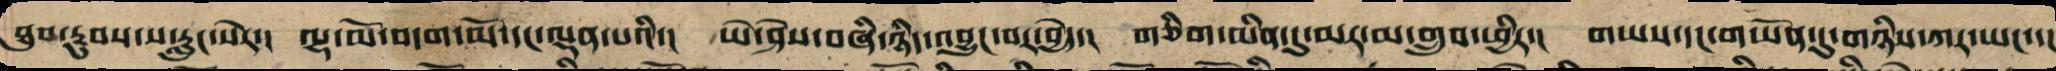ཐུབ་རུབས་ས་རླུང་སེར་། ལྷ་མོ་བདག་མོ་དང་ལྡན་པའི་། ཡེ་ཤེས་བཞི་ཉིད་འབྱུང་བར་བྱེད་། གཅིག་མིན་དུ་མར་མ་གྲུབ་ཕྱིར་། གཡས་དང་གཡོན་དུ་གཉིས་ཀར་ཡང་་།
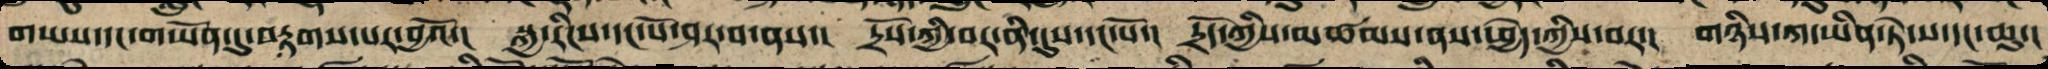གཡས་དང་གཡོན་དུ་བརྟག་པར་བྱའོ་། སྐྱ་རིངས་དང་པོ་ཤར་བ་ནས་། དྲོས་ཀྱི་བར་ནི་དུས་དང་པོ་། དྲོད་ཀྱི་མཚམས་ནས་ཕྱེད་ཀྱི་བར་། གཉིས་ཀ་ཡིན་ཏེ་ས་དང་ཆུ་།
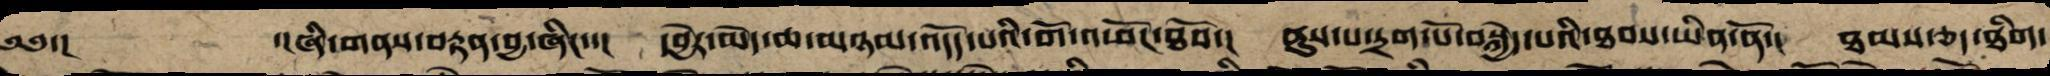༄༅་།      ་།ཞི་གནས་བརྟན་བྱ་ཞིང་་། དབྱེར་མེད་ཆ་མཉམ་འདོད་པའི་གོ་འཕང་ཐོབ་། ནུས་པ་དྲག་པོ་བསྐྱེད་པའི་ཐབས་ཡིན་ནོ་། ཐམས་ཅད་ཐིག་
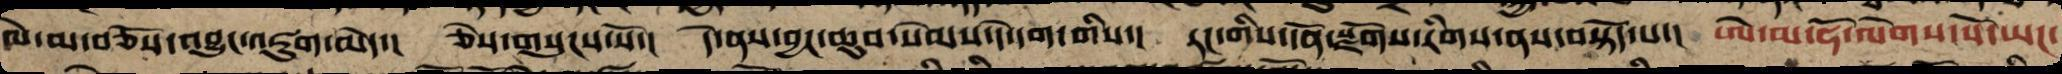ལེ་མ་བཅོས་འབྱུང་འཇུག་མེད་། ཅེས་གསུངས་སོ་། དེ་ནས་བྱང་ཆུབ་སེམས་་དེ་དག་གིས་། རང་གིས་དོན་སྫོགས་རིགས་ནས་བསྟོད་པ་། ཨེ་མ་ཧོ་ལེགས་སོ་ཡང་
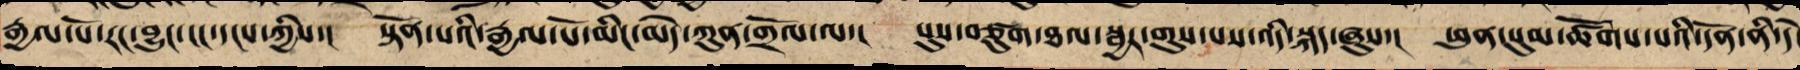རྒྱལ་པོ་རང་བྱུང་ངང་དངས་ཀྱིས་། སྟོན་པའི་རྒྱལ་པོ་མིང་མེད་ཀུན་གྲོལ་ལ་། པུས་བཙུགས་ཐལ་སྦྱར་གུས་པས་འདི་སྐད་ཞུས་། ཕུན་སུམ་ཚོགས་པའི་དོན་ནི་དེ་
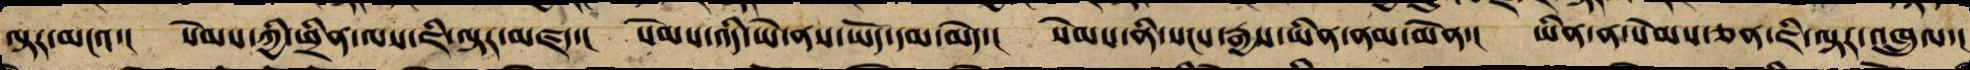ལྟར་མངའ་། སེམས་ཀྱི་ཕྲིན་ལས་ཇི་ལྟར་མཛད་། སེམས་འདི་ཡེ་ནས་ཡོད་དམ་མེད་། སེམས་ནི་སངས་རྒྱས་ཡིན་ནམ་མིན་། ཡིན་ན་སེམས་ཅན་ཇི་ལྟར་འཁྲུལ་།
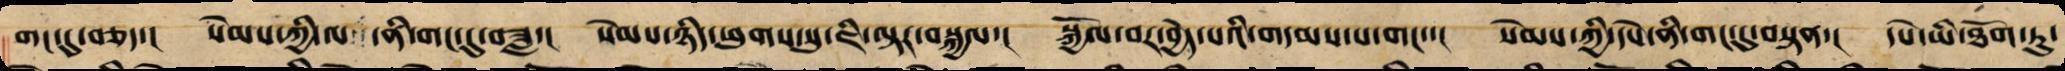གང་དུ་བཅད་། སེམས་ཀྱི་ལ་ནི་གང་དུ་བཟླ་། སེམས་ཉིད་ཕུགས་སུ་ཇི་ལྟར་བསྐྱལ་། སྐྱོལ་བར་བྱེད་པའི་གདམས་པ་གང་་། སེམས་ཀྱི་དཔེ་ནི་གང་དུ་བསྟན་། དཔེ་ཡི་ཐོག་ཏུ་
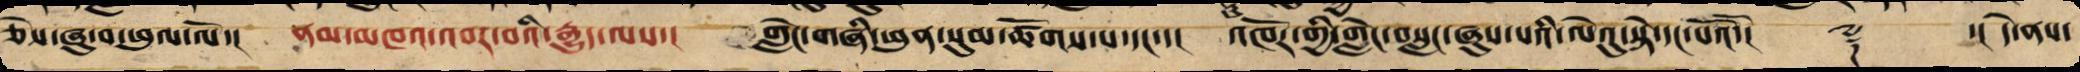ཅེས་ཞུ་བ་ཕུལ་ལོ་། ནམ་མཁའ་འབར་བའི་རྒྱུད་ལས་། གླེང་གཞི་ཕུན་སུམ་ཚོགས་པ་དང་་། འཁོར་གྱིས་གླེང་བསླང་ཞུས་པའི་ལེའུ་སྟེ་དང་པོའོ་།། ༈ ་།དེ་ནས་
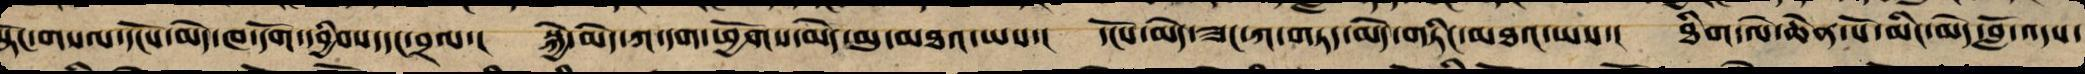སྟོང་གསལ་དངོས་མེད་ཁ་དོག་དབྱིབས་དང་བྲལ་། སྐྱེ་མེད་ཀ་དག་ཕྱོགས་མེད་མུ་མཐའ་ཡས་། དངོས་མེད་ཟང་ཀ་གཏད་མེད་གཏིང་མཐའ་ཡས་། ཐིག་ལེ་ཆེན་པོ་མིང་མེད་བློ་འདས་
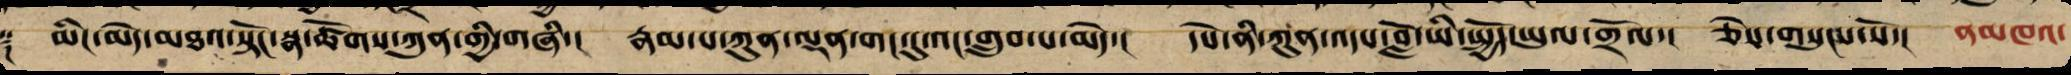༈ མིང་མེད་མཐའ་སྟོངས་སྣ་ཚོགས་ཀུན་གྱི་གཞི་། རྣམ་པ་ཀུན་ལྡན་གང་དུའང་གྲུབ་པ་མེད་། དཔེ་ནི་ཀུན་འདས་བློ་ཡི་སྤྱོད་ཡུལ་གྲོལ་། ཅེས་གསུངས་སོ་། ནམ་མཁའ་
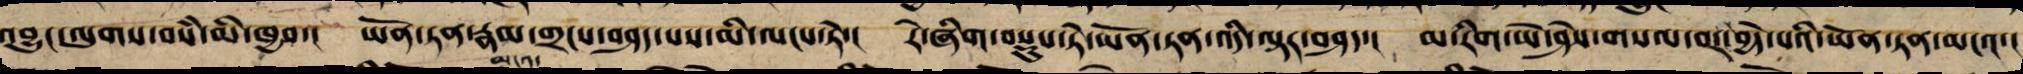འབྱུང་ལུགས་བསམ་མི་ཁྱབ་། ཡོན་ཏན་རྣམ་གྲངས་བཤད་པས་མི་ལངས་ཏེ་། རེ་ཞིག་བསྡུས་ཏེ་ཡོན་ཏན་འདི་ལྟར་བཤད་། མ་རིག་ཡེ་ཤེས་གསལ་བར་བྱེད་པའི་ཡོན་ཏན་མངའ་།
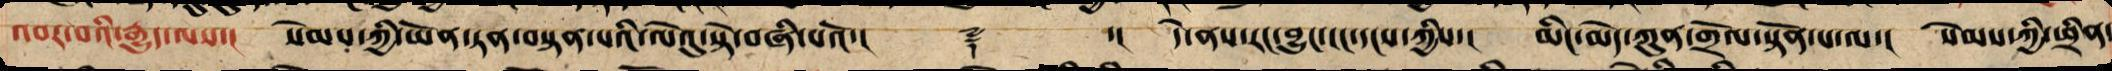འབར་བའི་རྒྱུད་ལས་། སེམས་ཀྱི་ཡོན་ཏན་བསྟན་པའི་ལེའུ་སྟེ་བཞི་པའོ་།། ༈ ་།། དེ་ནས་རང་བྱུང་ངང་དངས་ཀྱིས་། མིང་མེད་ཀུན་གྲོལ་སྟོན་པ་ལ་། སེམས་ཀྱི་ཕྲིན་
